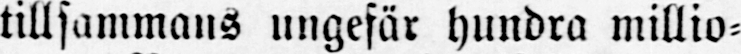tillsammans ungefär hundra millio-
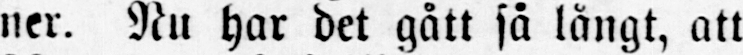ner. Nu har det gått sä långt, att
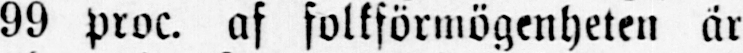99 proc. af folkförmögenheten är
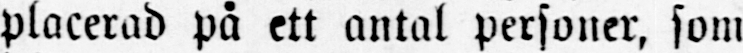placerad på ett antal personer, som
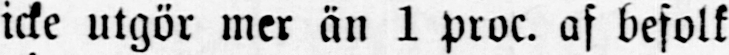icke utgör mer än 1 proc. af befolk-
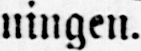ningen.
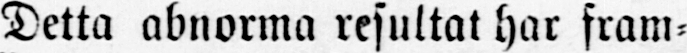Detta abnorma resultat har fram-
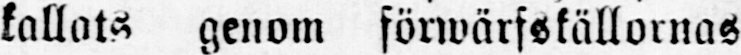kallats genom förwärfskällornas
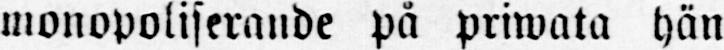monopoliserande på priwata hän-
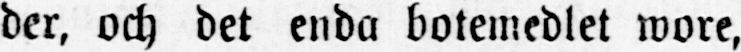der, och det enda botemedlet wore,
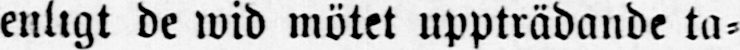enligt de wid mötet uppträdande ta-
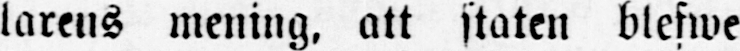larens mening, att staten blefwe
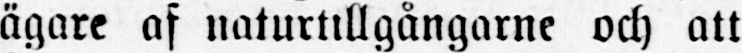ägare af naturtillgångarne och att
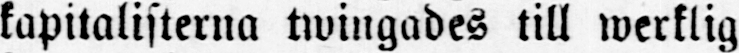kapitalisterna twingades till werklig
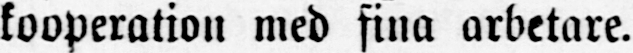kooperation med fina arbetare.
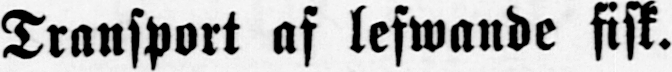Transport af lefwande fisk.
